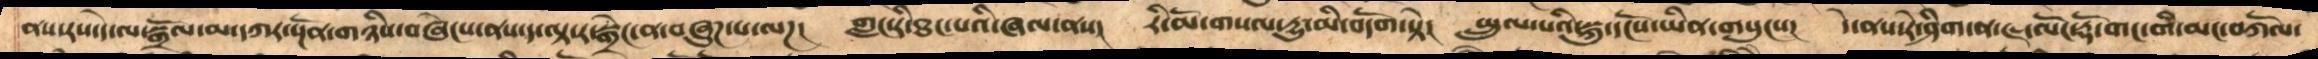ནས་རས་དེ་ལ་སྒྲོལ་མ་དཀར་སྔོན་གཉིས་བཞེངས་ནས་ད་ལྟ་ར་སྒྲེང་ན་བཞུཌ་པ་ལཌ།   གླང་རི་ཐང་པའི་ཞལ་ནས།  རི་མོ་གསལ་དྱུ་མི་བདོག་སྟེ།   སྤྲུལ་པའི་སྐུ་དངོས་ཡིན་གསུངས།    དེ་ནས་རེ་ཤིག་ན་ཇ་ལོང་རྡོ་གང་གི་མང་བཀོལ་
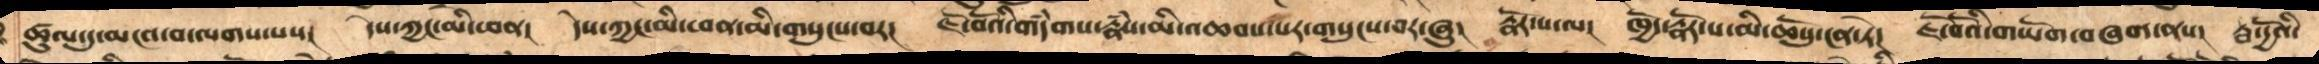ཚུལ་དུ་མངའ་བ་ལགས་པས།    དེས་ཀྱང་མི་ཕན།   དེས་ཀྱང་མི་ཕན་མི་གསུངས་བར།   ཇོ་བོའི་གདཾགས་རྣཾས་མི་འཆབས་པར་གསུངས་བར་ཞུ།   རྣོར་པ་ལ།   ཁྱོད་རྣོར་པ་མི་ཆོསུ་ངན་ཏེ།   ཇོ་བོའི་གཡོག་བཞག་ནས།   རྦ་དྱོའི་
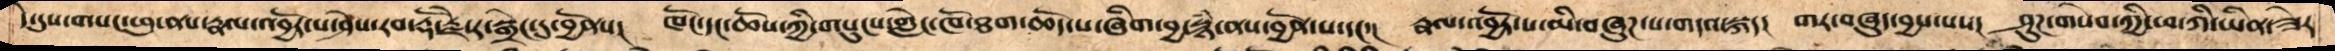དེ་དུས་གསང་ཕུ་ནས་རྣལ་འབྱོར་པ་ཤེས་རབ་རྡོ་རྗེ་ར་སྒྲེང་དུ་བྱོནས།    ཁོང་དང་ཆོས་ཀྱི་གསུངས་གླེང་ཁོ་ཐག་ཆོད་པ་ཞིག་བྱ་སྙཾ་ནས་བྱོན་པ་དང་།    རྣལ་འབྱོར་པ་མི་བཞུཌ་པ་གདའ་སྐད། གར་བཞུད་བྱས་པས།    ཤུཌ་གསེབ་ཀྱི་ཕ་ཀི་ཡིན་ཟེར
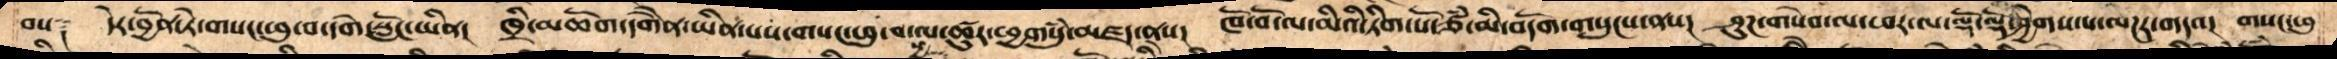བས༑  དེར་བྱོན་ཏེ་གསང་ཕུ་བ་དགེ་སློང་ཡིན།     ཁྲི་མཆོག་དགཻན་ཡིན་པས་གསང་ཕུ་བ་ལ་ཚུར་ཕྱགསུཾ་མཛད་ནས།    ཁོ་བོ་ལ་མིའི་ཏིག་པོ་ཙཾ་མི་བདོག་གསུངས་ནས།   ཤུག་གསེབ་ལ་ཕར་ལ་ལྡོ་ལྡོ་ཤྱེགས་པ་ལཌར་གདའ།    གསང་ཕུ
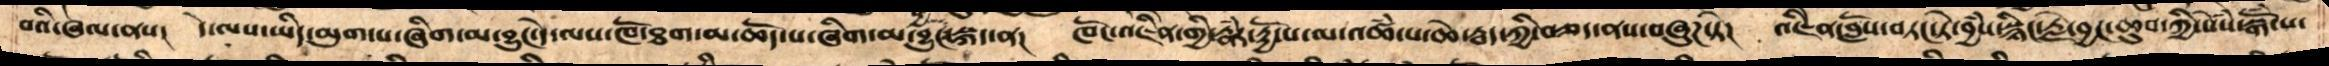བའི་ཞལ་ནས།    དེ་ལས་ཡིད་མུག་པ་ཞིག་མ་བྱུང་དེ་ལས་ཁོ་ཐག་མ་ཆོད་པ་ཞིག་མ་བྱུང་སྐད་ན།   ཁོང་འཇིེན་གྱི་རྣཾར་རྟྱོ་པ་ལ་འཚཾས་པ་ཆེ་རྦད་ཀྱི་བཅད་ནས་བཞུཌ་ཏེ།   འཇིེན་བློས་བཏང་ཏེ་བྱཾས་སྙིང་རྗེ་བྱང་ཆུབ་ཀྱི་སེཾས་སྒོཾ་པ་
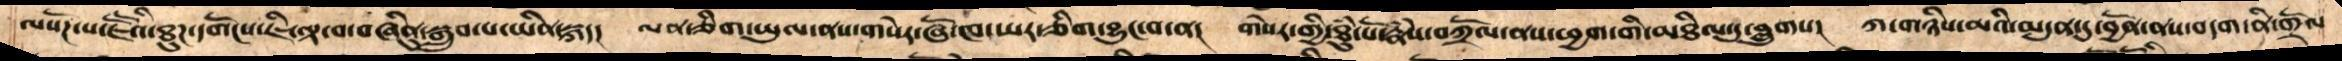ལསོཌ་པ་ཇཽའི་ཐུཌ་དགོངས་ཇི་ལྟ་བ་བཞིནུ་སྒྲུབ་པ་ཡིན་སྐད།   ལན་ཅིག་ཡུལ་ནས་གསེར་ཞོ་ཁ་ཡར་ཅིག་བྱུང་བ་ན།   གསེར་གྱི་ཐུཾ་པོ་རྣཾས་བཀྲོལ་ནས་ཕྱག་གི་མཐིལ་དུ་བླུགས།   ཀ་གཉིས་མའི་མདུན་དུ་བྱོན་ནས་བདག་ནི་གྲོལ
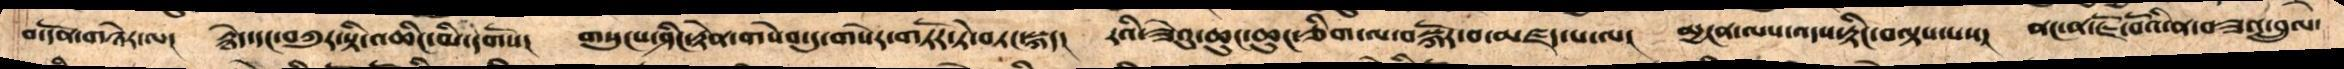བ་དོན་གཉེར་ལ།   རྙེད་དང་བཀུར་སྟི་འཆིང་མི་དགོས།   གསུངས་ཤིང་རྟེན་གསེབ་དུ་གསེར་གཏོར་ཏེ་བཏང་སྐད།   རའི་ཟེའུ་ཆུང་ཆུང་ཅིག་ལ་བསྐོར་བ་མཛད་པ་ལ།   མྱངན་ལས་འདས་རྟིང་བལྟས་པས།   ནང་ན་ཇོ་བོའི་ན་བཟའ་བྲུལ་
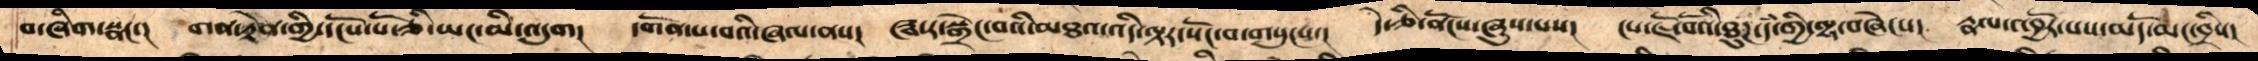བ་ཞིག་སྣང་།   གན་རྟེན་གྱི་དངོས་པོ་ཅི་ཡང་མི་འདུག།    དགོན་པ་བའི་ཞལ་ནས།   ཝ་རྭ་སྒྲེང་བའི་མཐའ་འདི་ལྟར་སོང་བ་གསུངས།   དེ་ཅི་ནོངས་ཞུས་པས།   ངས་ཇོ་བོའི་ཐུཌ་དཾ་གྱི་ལྷ་བཞེངས།   རྣལ་འབྱོར་པས་མདོ་མང་བྲིས།
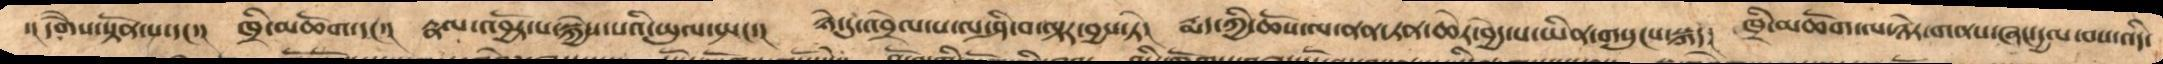་།དགེཻས་སྟོན་པ་དང་།    ཁྲི་མཆོག་དང་།    རྣལ་འབྱོར་པ་སྐྱེ་སའི་ཡུལ་སྤང་།    ཉེ་དུ་འབྲེལ་པ་ལ་ཤི་བ་ལྟར་བྱས་ཏེ།    སྨད་ཀྱི་ཆོས་ལ་ནན་ཏན་ཆེར་བྱེད་པ་ཡིན་གསུང་སྐད།    ཁྲི་མཆོག་ལ་ཉེར་གནས་ཞང་དྱལ་བས་འདི་
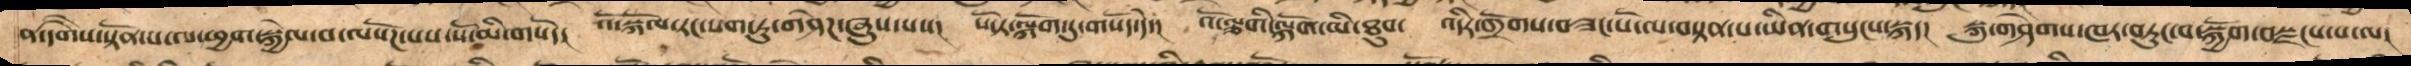ན་དགེཻས་སྟོན་པ་ལ་ཕྱག་སྐྱེལ་བ་ལསོཌ་པས་སོ་མི་གསོད།    འོ་སྐོལ་རང་སག་ཏུ་གཤེཌ་ཞུས་པས།    སོདར་ལྐོག་ཏུ་གསོད་དེ་།   འོ་ལྕགི་ལྐོག་མི་ཐུབ་   འདིར་གྲོགས་བཟང་པོ་ལ་བསྟན་པ་ཡིན་གསུངས་སྐད།    སྐུ་གཤེགས་ཁར་བཏུང་བ་སྐྱོག་བསྫངས་པ་ལ།
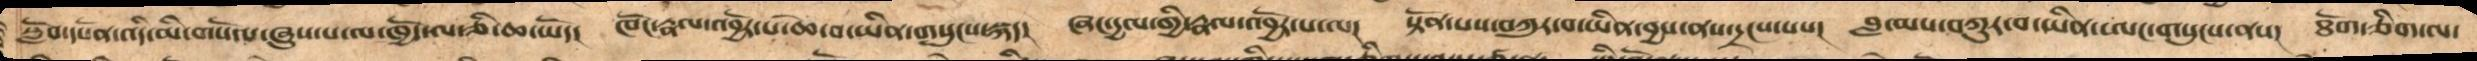སློབ་དཔོན་འདི་མི་གསོལ་ཞུས་པ་ལ་ཁྱོད་ལ་ཅི་ཆ་ཡོད།    ཁོང་རྣལ་འབྱོར་པ་ཆེ་བ་ཡིན་གསུངས་སྐད།   ཞང་དྱལ་གྱི་རྣལ་འབྱོར་པ་ལ།   སྟོན་པས་བཀུར་བ་ཡིན་བྱས་ནས་དྲངས་པས།    བླ་མས་བཀུར་བ་ཡིན་ཨང་གསུངས་ནས།   ཐོག་ཅིག་ལ་
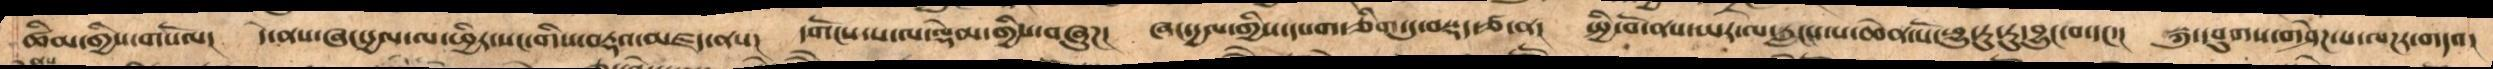ཚིམ་གྱིས་གསོལ།    དེ་ནས་ཞང་དྱལ་ལ་ཕྱིར་སང་གིས་བརྡའ་མཛད་ནས།    དགོངས་པ་ལ་ལྟེམ་གྱིས་བཞུཌ།    ཞང་རྒྱལ་གྱིས་དཔག་ཅིག་ཏུ་བསྡད་ཙ་ན།    སྤྱི་བོ་ནས་ཡར་ལ་རླངས་པ་ཆེན་པོ་བྱུ་རུ་རུ་བྱུང་བ་དང་།    སྐུ་དབུགས་གཤེཌ་པ་ལཌར་གདའ།
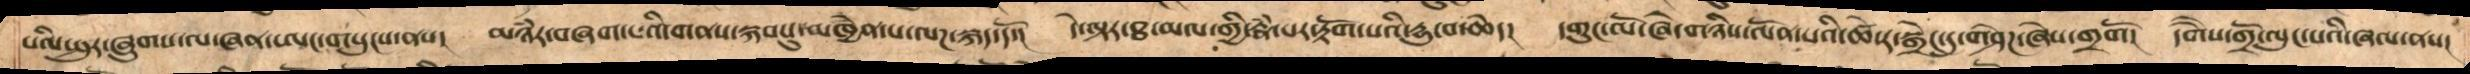པའི་སྤུར་ཞུགས་ལ་ཞན་ཨང་གསུངས་ནས།    མཉཾར་བཞག་པའི་གནས་སྐབསུ་མཁྱེན་པ་ལཌ་སྐད་དོ།    དེ་ལྟར་ཐ་མལ་གྱི་རྣཾ་པར་རྟོག་པའི་དྱུ་བ་ཆེད།    དགུང་ལོ་ཞེ་གཉིས་ལོན་པའི་ཚེ་ར་སྒྲེང་དུ་གཤེཌ་ཞེས་གྲགོ།    དགཻས་གྲོ་ལུང་པའི་ཞལ་ནས།
